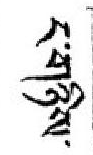ང་གཉིས་
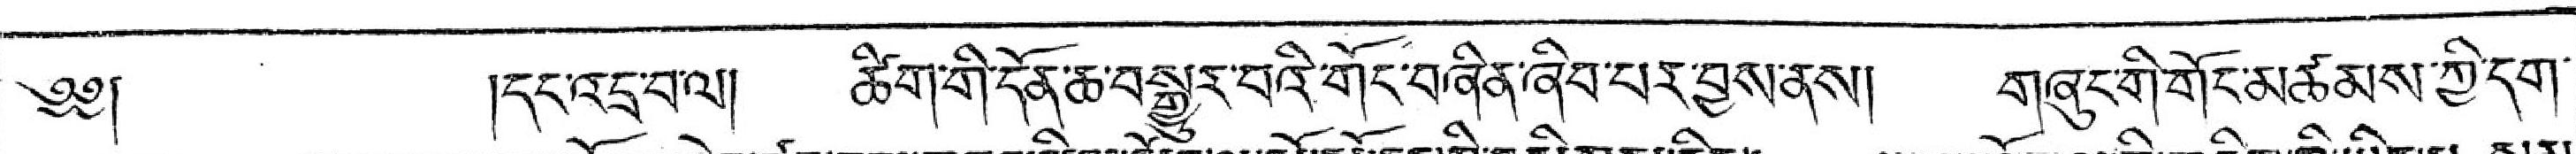༄༅།  །དང་འདྲ་བ་ལ། ཚིག་གི་དོན་ཆ་བསྒྱུར་བའི་གོང་བཞོན་ཞིབ་པར་བྱས་ནས། གཞུང་གི་གོང་མཚམས་ཀྱི་དག་
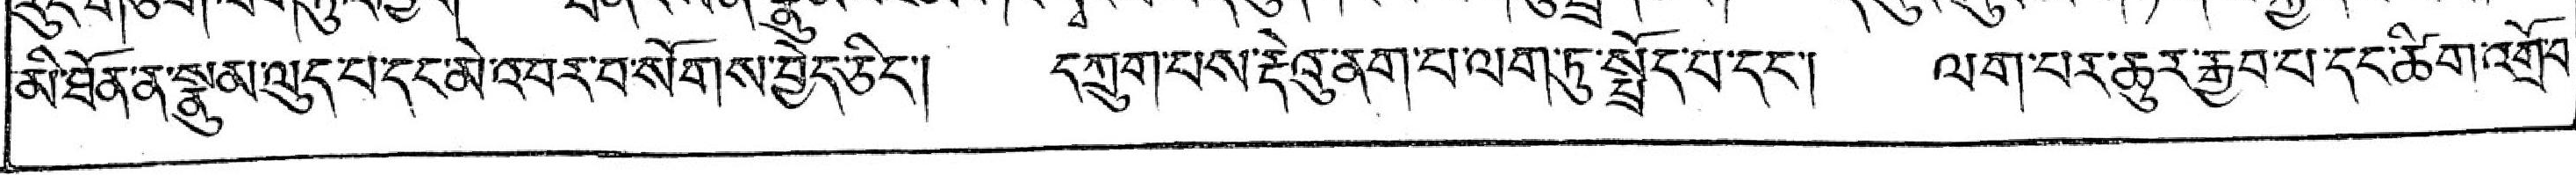མི་ཐོན་ན་སྣུམ་ལུད་པ་དང་མེ་འབར་བ་སོགས་བྱེད་ཅིང་། དཀྲུག་པས་རྡེའུ་ནག་པ་ལག་ཏུ་སྤྲོད་པ་དང་། ལག་པར་ཆུར་རྒྱབ་པ་དད་ཚིགའགྲོ་བ་
